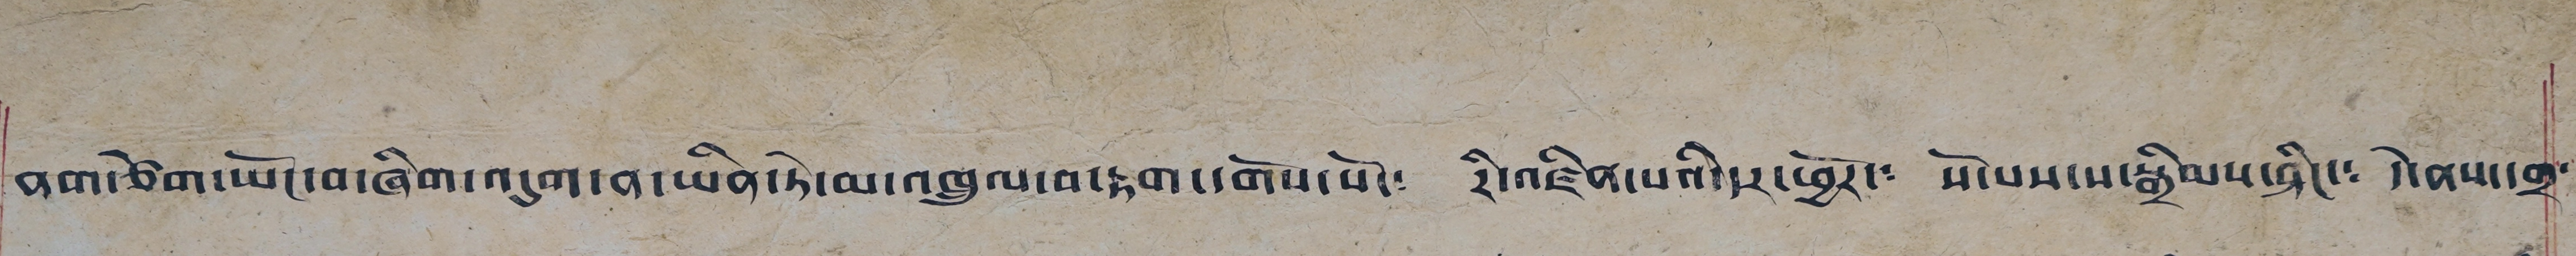ནག་ཙེག་ཡོང་བ་ཞིག་འདུག་ན་ཡིན་ཏེ་མ་འཁྲུལ་བ་རྟག་དགོས་སོ་༴ རི་འཛིན་པའི་དར་ཕྱོར་༴ སོ་པས་པ་སྒྲིམས་ཤིང་། དེ་ནས་དགྲ་
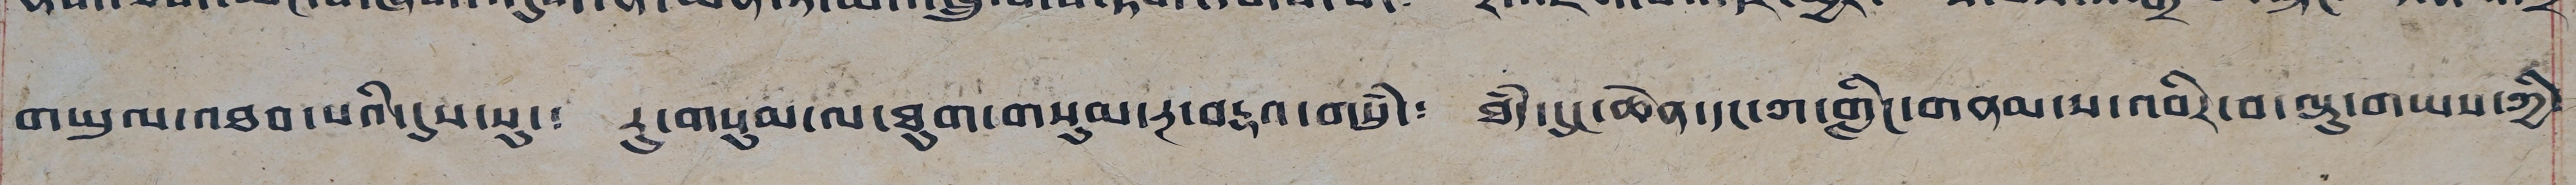གཡུལ་འཐབ་པའི་དུས་སུ་། རུ་གསུམ་ལ་ཐུག་གསུམ་རྔ་བརྡའ་གསུཾ་། ཐཾད་དུང་ཆེན་དང་ག་གླིང་གནམ་པ་འབིར་བ་ལྟུ་གཡས་ཀྱི་
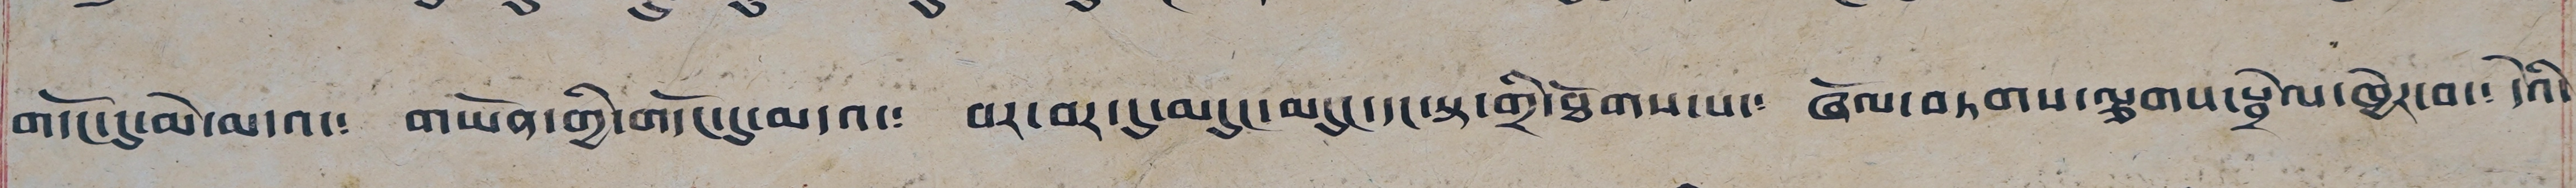གདོང་དུ་མེ་མདའ་༴ གཡོན་གྱི་གདོང་དུ་མདའ་༴ བར་བར་དུ་མདུང་མདུང་དང་སྟ་གྲི་ཐོགས་པ་༴ ཞོལ་བཏགས་ལྕགས་སྤྲེལ་ཁྱེར་བ་༴ དེའི་
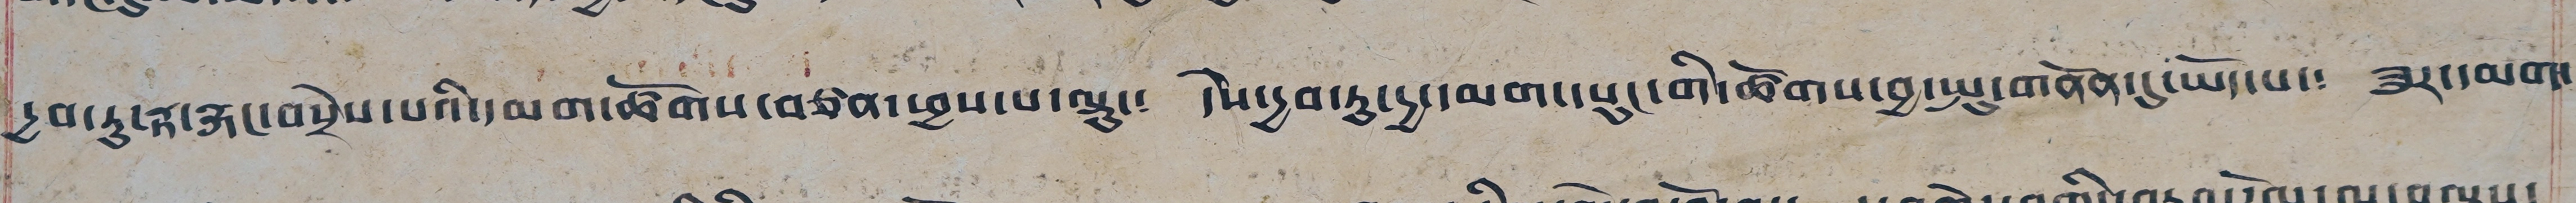དྱབ་ཏུ་རྟ་རྐང་བསྲེས་པའི་དམག་ཚོགས་བཙན་ཕྱས་པ་ལྟུ་༴ དེས་དྱབ་ཏུ་དྱ་དམག་དཔུང་གི་ཚོགས་བྱ་སྤུ་གནོན་དུ་ཡོད་པ་༴ ཟུར་དམག་
